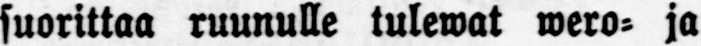suorittaa ruunulle tulewat wero- ja
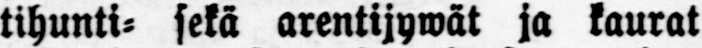tihunti- sekä arentijywät ja kaurat
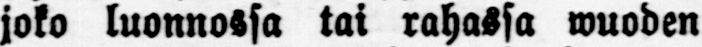joko luonnossa tai rahassa wuoden
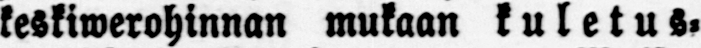keskiwerohinnan mukaan kuletus-
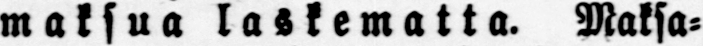maksua laskematta. Maksa-
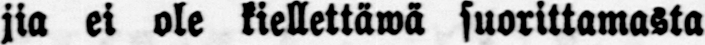jia ei ole kiellettäwä suorittamasta
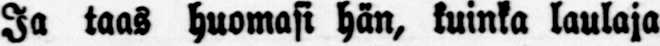Ja taas huomasi hän, kuinka laulaja
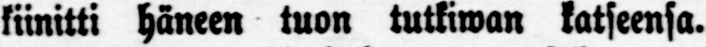kiinitti häneen tuon tutkiwan katseensa.
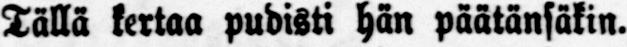Tällä kertaa pudisti hän päätänsäkin.
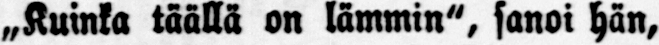„Kuinka täällä on lämmin", sanoi hän,
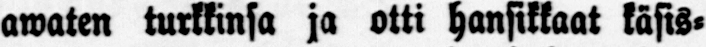awaten turkkinsa ja otti hansikkaat käsis-
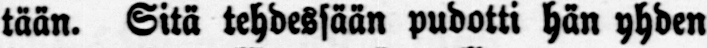tään. Sitä tehdessään pudotti hän yhden
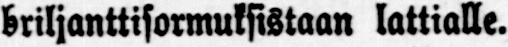briljanttisormuksistaan lattialle.
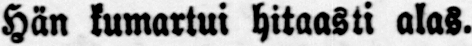Hän kumartui hitaasti alas.
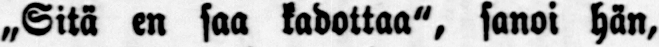„Sitä en saa kadottaa", sanoi hän,
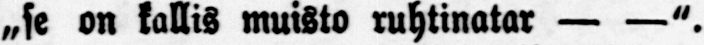„se on kallis muisto ruhtinatar — —".
